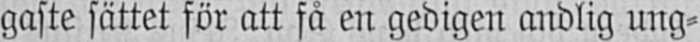gaste sättet för att få en gedigen andlig ung-
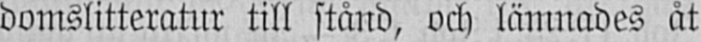domslitteratur till stånd, och lämnades åt
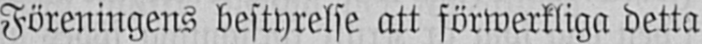Föreningens bestyrelse att förwerkliga detta
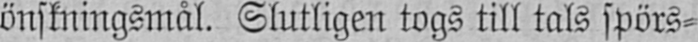önskningsmål. Slutligen togs till tals spörs-
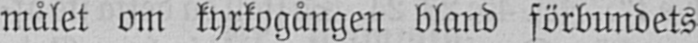målet om kyrkogången bland förbundets
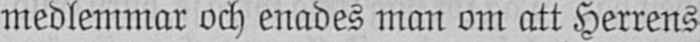medlemmar och enades man om att Herrens
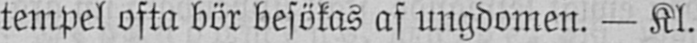tempel ofta bör besökas af ungdomen. — Kl.
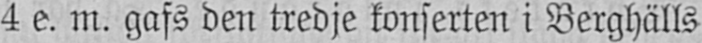4 e. m. gafs den tredje konserten i Berghälls
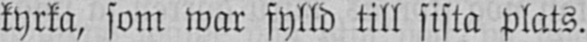kyrka, som war fylld till sista plats.
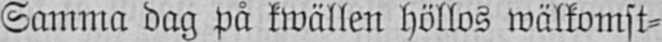Samma dag på kwällen höllos wälkomst-
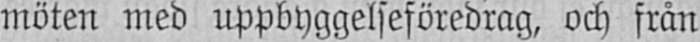möten med uppbyggelseföredrag, och från
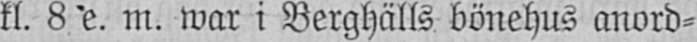kl. 8 e. m. war i Berghälls bönehus anord-
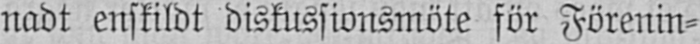nadt enskildt diskussionsmöte för Förenin-
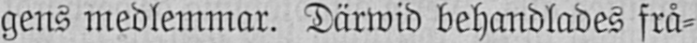gens medlemmar. Därwid behandlades frå-
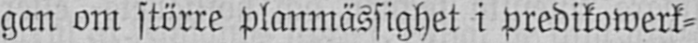gan om större planmässighet i predikowerk-
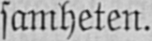samheten.
